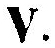V.
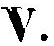V.
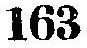163
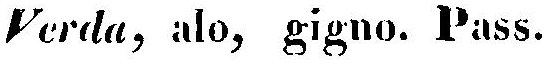Verda, alo, gigno. Pass.
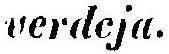verdeja.
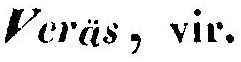Veräs, vir.
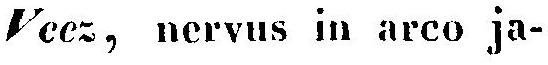Vecz, nervus in arco ja-
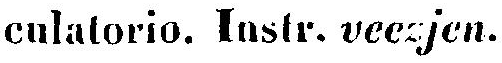culatorio. Instr. veczjen.
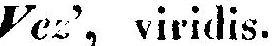Vez', viridis.
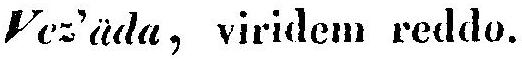Ves'äda, viridem reddo.
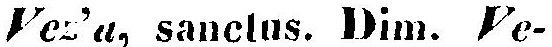Vez'a, sanctus. Dim. Ve-
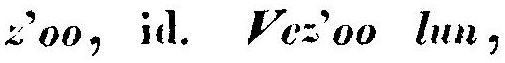z'oo, id. Vez'oo lun,
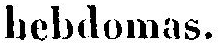hebdomas.
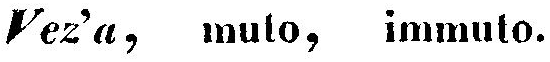Vez'a, muto, immuto.
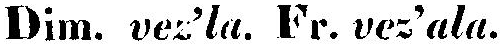Dim. vez'la. Fr. vez'ala.
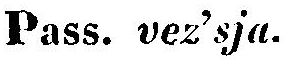Pass. vez'sja.
